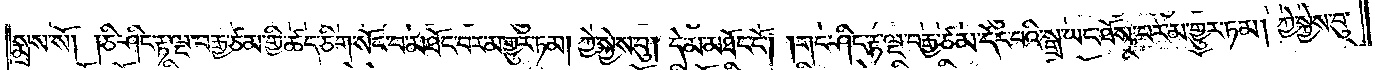སྨྲས་སོ། །ཅི་ཤིང་རྟ་ལྔ་བརྒྱ་ཙམ་གྱི་ཚད་ཅིག་སོང་བ་མཐོང་བར་མ་གྱུར་ཏམ། ཀྱེ་སྐྱེས་བུ། དེ་མ་མཐོང་ངོ༌། །གང་ཤིང་རྟ་ལྔ་བརྒྱ་ཙམ་དོང་བའི་སྒྲ་ཡང་ཐོས་པར་མ་གྱུར་ཏམ། ཀྱེ་སྐྱེས་བུ་
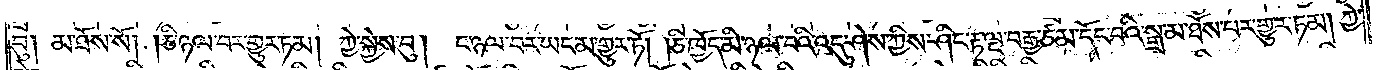བུ། མ་ཐོས་སོ། །ཅི་ཉལ་བར་གྱུར་ཏམ། ཀྱེ་སྐྱེས་བུ། ང་ཉལ་བར་ཡང་མ་གྱུར་ཏོ། །ཅི་ཁྱོད་མི་ཉལ་བའི་འདུ་ཤེས་ཀྱིས་ཤིང་རྟ་ལྔ་བརྒྱ་ཙམ་དོང་བའི་སྒྲ་མ་ཐོས་པར་གྱུར་ཏམ། ཀྱེ་
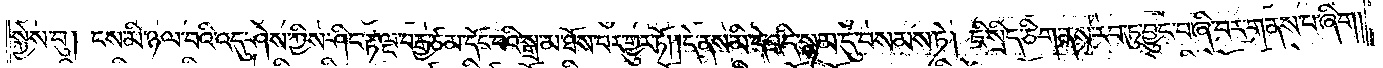སྐྱེས་བུ། ངས་མི་ཉལ་བའི་འདུ་ཤེས་ཀྱིས་ཤིང་རྟ་ལྔ་བརྒྱ་ཙམ་དོང་བའི་སྒྲ་མ་ཐོས་པར་གྱུར་ཏོ། །དེ་ནས་མི་དེ་འདི་སྙམ་དུ་བསམས་ཏེ། ཇི་སྲིད་ཅིག་ནས་རབ་ཏུ་བྱུང་བ་ཞི་བར་གནས་པ་ཞིག།
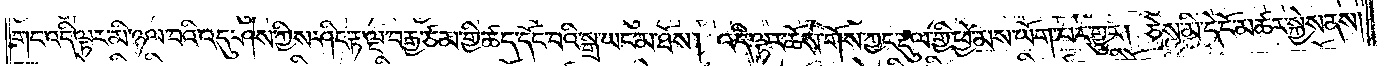གང་འདི་ལྟར་མི་ཉལ་བའི་འདུ་ཤེས་ཀྱིས་ཤིང་རྟ་ལྔ་བརྒྱ་ཙམ་གྱི་ཚད་དོང་བའི་སྒྲ་ཡང་མ་ཐོས། འདི་ལྟར་ཆོས་གོས་ཀྱང་རྡུལ་གྱི་ཕྱེ་མས་ཡོག་པར་གྱུར། ཅེས་མི་དེ་ངོ་མཚར་སྐྱེས་ནས།
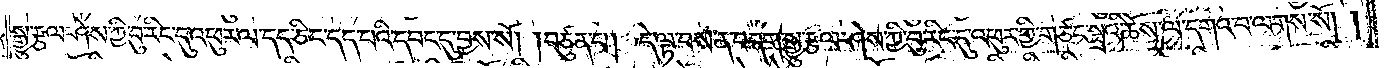སྒྱུ་རྩལ་ཤེས་ཀྱི་བུ་རིང་དུ་འཕུར་ལ་དད་ཅིང་དད་པའི་དབང་དུ་བྱས་སོ། །བཙུན་པ། དེ་ལྟ་བས་ན་བདག་སྒྱུ་རྩལ་ཤེས་ཀྱི་བུ་རིང་དུ་འཕུར་གྱི་གཙང་སྦྲའི་ཆོས་ལ་དགའ་བ་ལགས་སོ། །
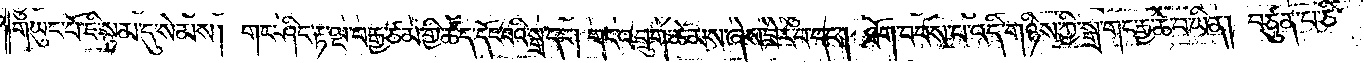གཡུང་པོ་ཇི་སྙམ་དུ་སེམས། གང་ཤིང་རྟ་ལྔ་བརྒྱ་ཙམ་གྱི་ཚད་དོང་བའི་སྒྲ་དང༌། གང་འབྲུག་ཆེམས་ཞེས་ཟེར་བ་དང༌། ཐོག་བབས་པ་འདི་གཉིས་ཀྱི་སྒྲ་གང་རྒྱ་ཆེ་བ་ཡིན། བཙུན་པ་ཅི་
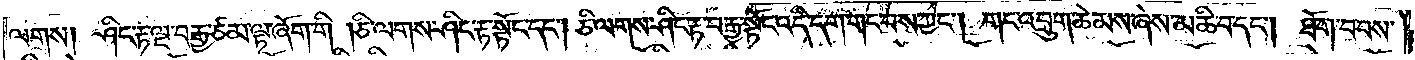ལགས། ཤིང་རྟ་ལྔ་བརྒྱ་ཙམ་ལྟ་ཞོག་གི །ཅི་ལགས་ཤིང་རྟ་སྟོང་དང༌། ཅི་ལགས་ཤིང་རྟ་བརྒྱ་སྟོང་འདི་དག་གང་བས་ཀྱང༌། གང་འབྲུག་ཆེམས་ཞེས་མཆི་བ་དང༌། ཐོག་བབས་
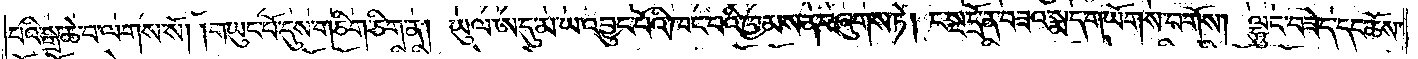པའི་སྒྲ་ཆེ་བ་ལགས་སོ། །གཡུང་པོ་དུས་གཅིག་ཅིག་ན། ཡུལ་ཨ་དུ་མ་ཡ་འབྱུང་པོའི་ཁང་པའི་ཁྱམས་ན་བཞུགས་ཏེ། ང་སྔ་དྲོ་ན་བཟའ་སྨད་གཡོགས་བགོས། ལྷུང་བཟེད་དང་ཆོས་
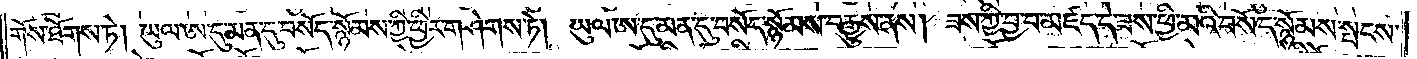གོས་ཐོགས་ཏེ། ཡུལ་ཨ་དུ་མན་དུ་བསོད་སྙོམས་ཀྱི་ཕྱིར་གཤེགས་ཏེ། ཡུལ་ཨ་དུ་མན་དུ་བསོད་སྙོམས་བརྒྱུས་ནས། ཟས་ཀྱི་བྱ་བ་མཛད་དེ་ཟས་ཕྱི་མའི་བསོད་སྙོམས་སྤངས་
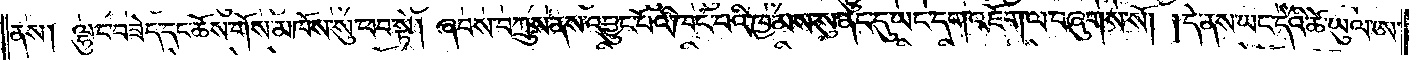ནས། ལྷུང་བཟེད་དང་ཆོས་གོས་མཁོས་སུ་ཕབ་སྟེ། ཞབས་བཀྲུས་ནས་འབྱུང་པོའི་ཁང་པའི་ཁྱམས་སུ་ནང་དུ་ཡང་དག་འཇོག་ལ་བཞུགས་སོ། །དེ་ནས་ཡང་དེའི་ཚེ་ཡུལ་ཨ་
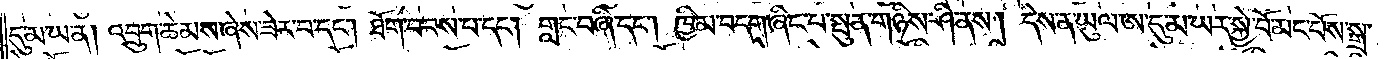དུ་མ་ཡ་ན། འབྲུག་ཆེམས་ཞེས་ཟེར་བ་དང༌། ཐོག་བབས་པ་དང༌། གླང་བཞི་དང༌། ཁྱིམ་བདག་ཞིང་པ་སྤུན་གཉིས་ཤི་ནས། དེ་ནས་ཡུལ་ཨ་དུ་མ་ཡར་སྐྱེ་བོ་མང་པོས་སྒྲ་
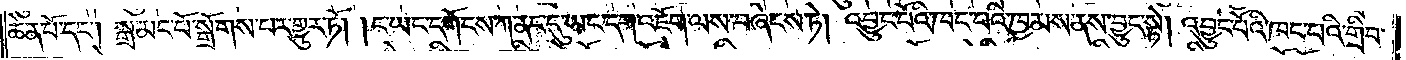ཆེན་པོ་དང༌། སྒྲ་མང་པོ་སྒྲོགས་པར་གྱུར་ཏོ། །ང་ཡང་དགོངས་ཀ་ནང་དུ་ཡང་དག་འཇོག་ལས་བཞེངས་ཏེ། འབྱུང་པོའི་ཁང་པའི་ཁྱམས་ནས་བྱུང་སྟེ། འབྱུང་པོའི་ཁང་པའི་གྲིབ་
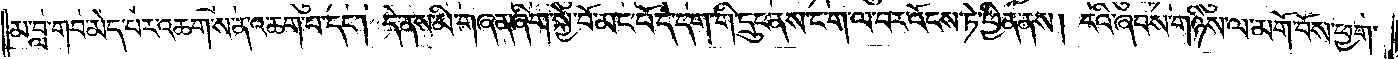མ་བླ་གབ་མེད་པར་འཆགས་ན་འཆག་པ་དང༌། དེ་ནས་མི་གཞན་ཞིག་སྐྱེ་བོ་མང་པོ་དེ་དག་གི་དྲུང་ནས་ང་ག་ལ་བར་འོངས་ཏེ་ཕྱིན་ནས། ངའི་ཞབས་གཉིས་ལ་མགོ་བོས་ཕྱག་
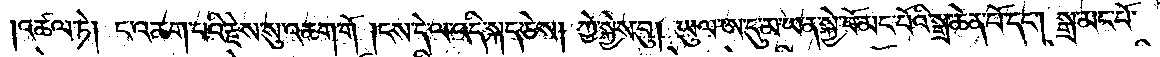འཚལ་ཏེ། ང་འཆག་པའི་རྗེས་སུ་འཆག་གོ །ངས་དེ་ལ་འདི་སྐད་ཅེས། ཀྱེ་སྐྱེས་བུ། ཡུལ་ཨ་དུ་མ་ཡ་ན་སྐྱེ་བོ་མང་པོའི་སྒྲ་ཆེན་པོ་དང༌། སྒྲ་མང་པོ་
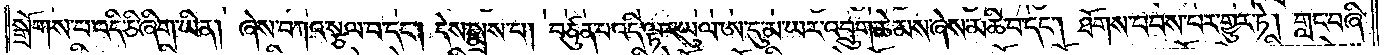སྒྲོགས་པ་འདི་ཅི་ཞིག་ཡིན། ཞེས་བཀའ་སྩལ་པ་དང༌། དེས་སྨྲས་པ། བཙུན་པ་འདི་ལྟར་ཡུལ་ཨ་དུ་མ་ཡར་འབྲུག་ཆེམས་ཞེས་མཆི་བ་དང༌། ཐོགས་བབས་པར་གྱུར་ཏེ། གླང་བཞི་
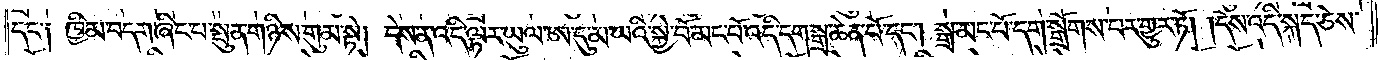དང་༑ ཁྱིམ་བདག་ཞིང་པ་སྤུན་གཉིས་གུམ་སྟེ། དེས་ན་འདི་ལྟར་ཡུལ་ཨ་དུ་མ་ཡའི་སྐྱེ་བོ་མང་པོ་འདི་དག་སྒྲ་ཆེན་པོ་དང༌། སྒྲ་མང་པོ་དག་སྒྲོགས་པར་གྱུར་ཏོ། །དེས་འདི་སྐད་ཅེས་
